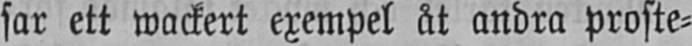sar ett wackert exempel åt andra proste-
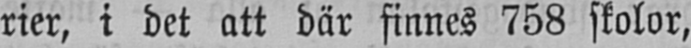rier, i det att där finnes 758 skolor,
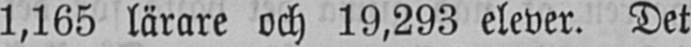1,165 lärare och 19,293 elever. Det
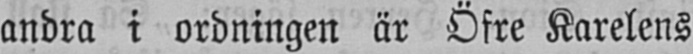andra i ordningen är Öfre Karelens
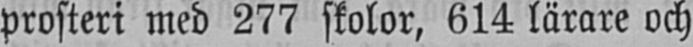prosteri med 277 skolor, 614 lärare och
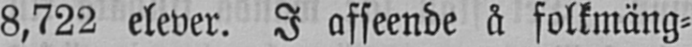8,722 elever. I afseende å folkmäng-
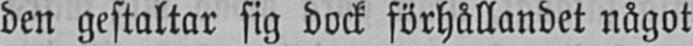den gestaltar sig dock förhållandet något
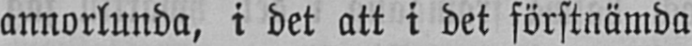annorlunda, i det att i det förstnämda
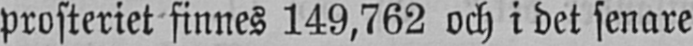prosteriet finnes 149,762 och i det senare
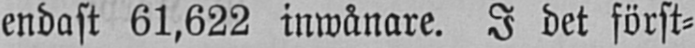endast 61,622 inwånare. I det först-
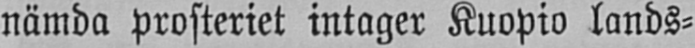nämda prosteriet intager Kuopio lands-
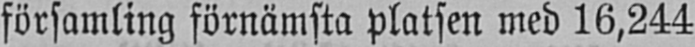församling förnämsta platsen med 16,244
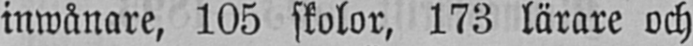inwånare, 105 skolor, 173 lärare och
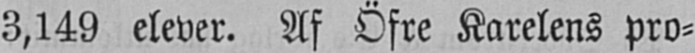3,149 elever. Af Öfre Karelens pro-
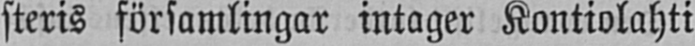steris församlingar intager Kontiolahti
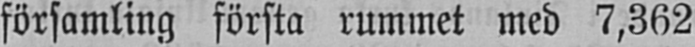församling första rummet med 7,362
